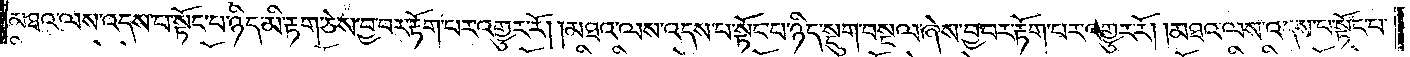མཐའ་ལས་འདས་པ་སྟོང་པ་ཉིད་མི་རྟག་ཅེས་བྱ་བར་རྟོག་པར་འགྱུར་རོ། །མཐའ་ལས་འདས་པ་སྟོང་པ་ཉིད་སྡུག་བསྔལ་ཞེས་བྱ་བར་རྟོག་པར་འགྱུར་རོ། །མཐའ་ལས་འདས་པ་སྟོང་པ་
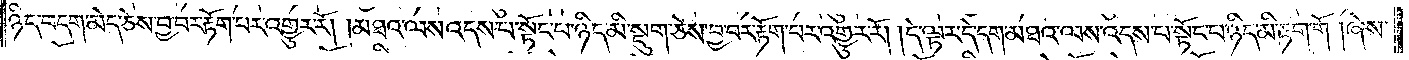ཉིད་བདག་མེད་ཅེས་བྱ་བར་རྟོག་པར་འགྱུར་རོ། །མཐའ་ལས་འདས་པ་སྟོང་པ་ཉིད་མི་སྡུག་ཅེས་བྱ་བར་རྟོག་པར་འགྱུར་རོ། །དེ་ལྟར་དེ་དག་མཐའ་ལས་འདས་པ་སྟོང་པ་ཉིད་མི་རྟག་གོ། ཞེས་
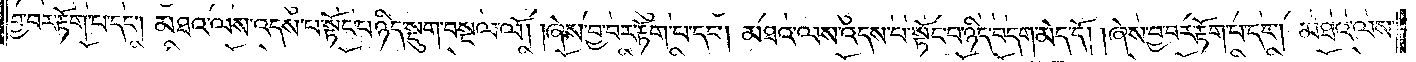བྱ་བར་རྟོག་པ་དང༌། མཐའ་ཡས་འདས་པ་སྟོང་པ་ཉིད་སྡུག་བསྔལ་ལོ། །ཞེས་བྱ་བར་རྟོག་པ་དང༌། མཐའ་ལས་འདས་པ་སྟོང་པ་ཉིད་བདག་མེད་དོ། །ཞེས་བྱ་བར་རྟོག་པ་དང༌། མཐའ་ལས་
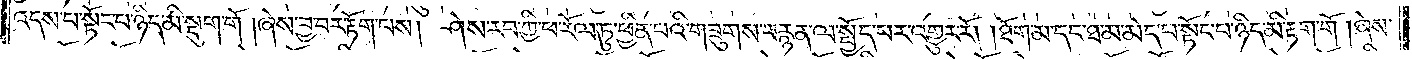འདས་པ་སྟོང་པ་ཉིད་མི་སྡུག་གོ། ཞེས་བྱ་བར་རྟོག་པས། ཤེས་རབ་ཀྱི་ཕ་རོལ་ཏུ་ཕྱིན་པའི་གཟུགས་བརྙན་ལ་སྤྱོད་པར་འགྱུར་རོ། །ཐོག་མ་དང་ཐ་མ་མེད་པ་སྟོང་པ་ཉིད་མི་རྟག་གོ། ཞེས་
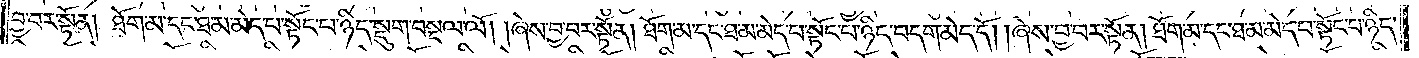བྱ་བར་སྟོན། ཐོག་མ་དང་ཐ་མ་མེད་པ་སྟོང་པ་ཉིད་སྡུག་བསྔལ་ལོ། །ཞེས་བྱ་བར་སྟོན། ཐོག་མ་དང་ཐ་མ་མེད་པ་སྟོང་པ་ཉིད་བདག་མེད་དོ། །ཞེས་བྱ་བར་སྟོན། ཐོག་མ་དང་ཐ་མ་མེད་པ་སྟོང་པ་ཉིད་
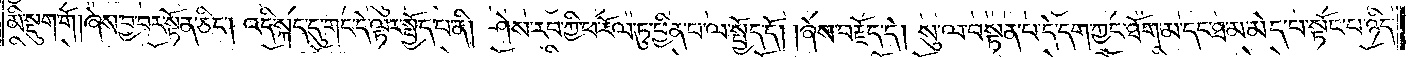མི་སྡུག་གོ། །ཞེས་བྱ་བར་སྟོན་ཅིང༌། འདི་སྐད་དུ་གང་དེ་ལྟར་སྤྱོད་པ་ནི། ཤེས་རབ་ཀྱི་ཕ་རོལ་ཏུ་ཕྱིན་པ་ལ་སྤྱོད་དོ། །ཞེས་བརྗོད་དེ། སུ་ལ་བསྟན་པ་དེ་དག་ཀྱང་ཐོག་མ་དང་ཐ་མ་མེད་པ་སྟོང་པ་ཉིད་
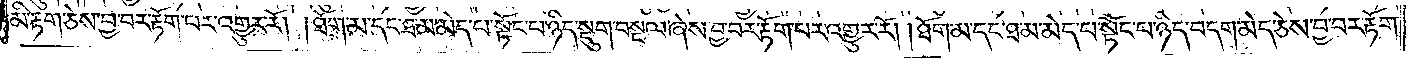མི་རྟག་ཅེས་བྱ་བར་རྟོག་པར་འགྱུར་རོ། །ཐོག་མ་དང་ཐ་མ་མེད་པ་སྟོང་པ་ཉིད་སྡུག་བསྔལ་ཞེས་བྱ་བར་རྟོག་པར་འགྱུར་རོ། །ཐོག་མ་དང་ཐ་མ་མེད་པ་སྟོང་པ་ཉིད་བདག་མེད་ཅེས་བྱ་བར་རྟོག་
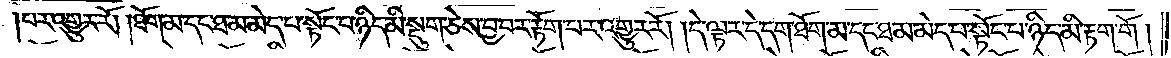པར་འགྱུར་རོ། །ཐོག་མ་དང་ཐ་མ་མེད་པ་སྟོང་པ་ཉིད་མི་སྡུག་ཅེས་བྱ་བར་རྟོག་པར་འགྱུར་རོ། །དེ་ལྟར་དེ་དག་ཐོག་མ་དང་ཐ་མ་མེད་པ་སྟོང་པ་ཉིད་མི་རྟག་གོ།
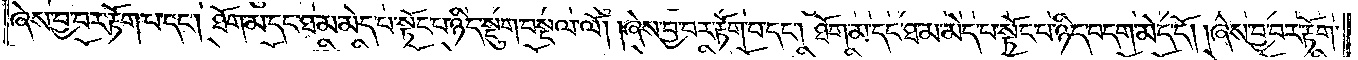ཞེས་བྱ་བར་རྟོག་པ་དང༌། ཐོག་མ་དང་ཐ་མ་མེད་པ་སྟོང་པ་ཉིད་སྡུག་བསྔལ་ལོ། །ཞེས་བྱ་བར་རྟོག་པ་དང༌། ཐོག་མ་དང་ཐ་མ་མེད་པ་སྟོང་པ་ཉིད་བདག་མེད་དོ། །ཞེས་བྱ་བར་རྟོག་
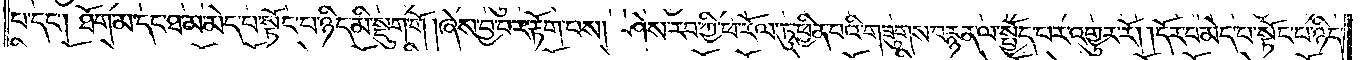པ་དང༌། ཐོག་མ་དང་ཐ་མ་མེད་པ་སྟོང་པ་ཉིད་མི་སྡུག་གོ། ཞེས་བྱ་བར་རྟོག་པས། ཤེས་རབ་ཀྱི་ཕ་རོལ་ཏུ་ཕྱིན་པའི་གཟུགས་བརྙན་ལ་སྤྱོད་པར་འགྱུར་རོ། །དོར་བ་མེད་པ་སྟོང་པ་ཉིད་
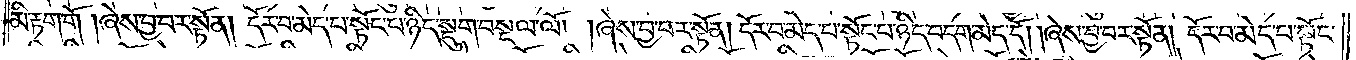མི་རྟག་གོ། ཞེས་བྱ་བར་སྟོན། དོར་བ་མེད་པ་སྟོང་པ་ཉིད་སྡུག་བསྔལ་ལོ། །ཞེས་བྱ་བར་སྟོན། དོར་བ་མེད་པ་སྟོང་བ་ཉིད་བདག་མེད་དོ། །ཞེས་བྱ་བར་སྟོན། དོར་བ་མེད་པ་སྟོང་
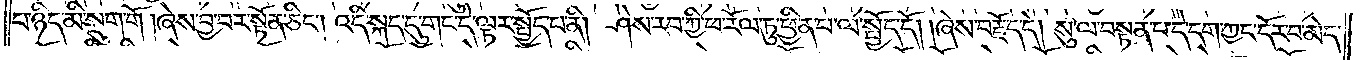བ་ཉིད་མི་སྡུག་གོ། ཞེས་བྱ་བར་སྟོན་ཅིང༌། འདི་སྐད་དུ་གང་དེ་ལྟར་སྤྱོད་པ་ནི། ཤེས་རབ་ཀྱི་ཕ་རོལ་ཏུ་ཕྱིན་པ་ལ་སྤྱོད་དོ། །ཞེས་བརྗོད་དེ། སུ་ལ་བསྟན་པ་དེ་དག་ཀྱང་དོར་བ་མེད་
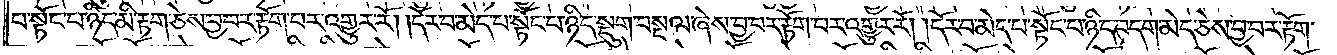པ་སྟོང་པ་ཉིད་མི་རྟག་ཅེས་བྱ་བར་རྟོག་པར་འགྱུར་རོ། །དོར་བ་མེད་པ་སྟོང་པ་ཉིད་སྡུག་བསྔལ་ཞེས་བྱ་བར་རྟོག་པར་འགྱུར་རོ། །དོར་བ་མེད་པ་སྟོང་པ་ཉིད་བདག་མེད་ཅེས་བྱ་བར་རྟོག་
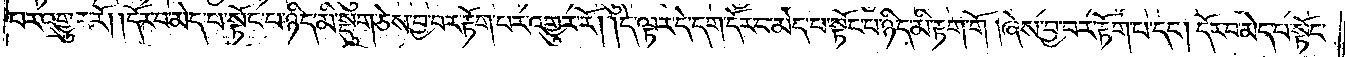པར་འགྱུར་རོ། །དོར་བ་མེད་པ་སྟོང་པ་ཉིད་མི་སྡུག་ཅེས་བྱ་བར་རྟོག་པར་འགྱུར་རོ། །དེ་ལྟར་དེ་དག་དོར་བ་མེད་པ་སྟོང་པ་ཉིད་མི་རྟག་གོ། ཞེས་བྱ་བར་རྟོག་པ་དང༌། དོར་བ་མེད་པ་སྟོང་
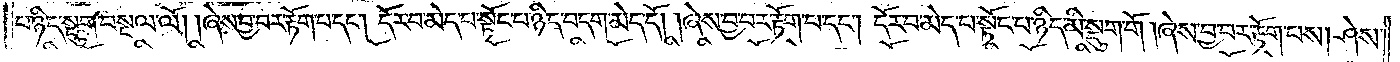པ་ཉིད་སྡུག་བསྔལ་ལོ། །ཞེས་བྱ་བར་རྟོག་པ་དང༌། དོར་བ་མེད་པ་སྟོང་པ་ཉིད་བདག་མེད་དོ། །ཞེས་བྱ་བར་རྟོག་པ་དང༌། དོར་བ་མེད་པ་སྟོང་པ་ཉིད་མི་སྡུག་གོ། ཞེས་བྱ་བར་རྟོག་པས། ཤེས་
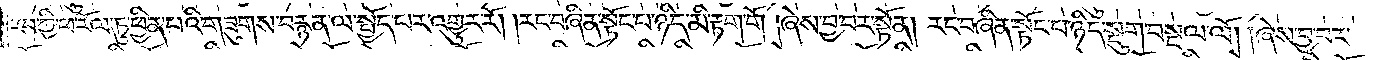རབ་ཀྱི་ཕ་རོལ་ཏུ་ཕྱིན་པའི་གཟུགས་བརྙན་ལ་སྤྱོད་པར་འགྱུར་རོ། །རང་བཞིན་སྟོང་པ་ཉིད་མི་རྟག་གོ། ཞེས་བྱ་བར་སྟོན། རང་བཞིན་སྟོང་པ་ཉིད་སྡུག་བསྔལ་ལོ། །ཞེས་བྱ་བར་
